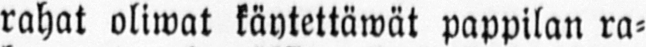rahat oliwat käytettäwät pappilan ra-
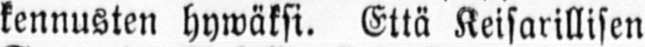kennusten hywäksi. Että Keisarillisen
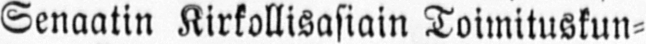Senaatin Kirkollisasiain Toimituskun-
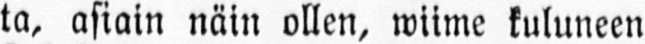ta, asiain näin ollen, wiime kuluneen
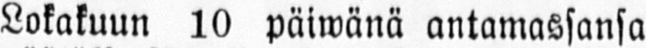Lokakuun 10 päiwänä antamassansa
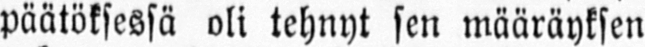päätöksessä oli tehnyt sen määräyksen
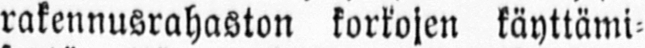rakennusrahaston korkojen käyttämi-
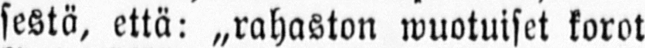sestä, että: „rahaston wuotuiset korot
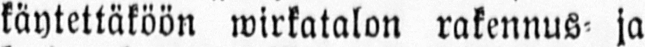käytettäköön wirkatalon rakennus- ja
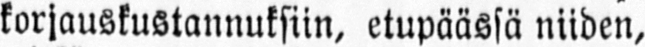korjauskustannuksiin, etupäässä niiden,
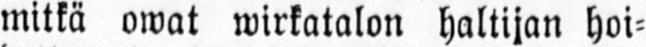mitkä owat wirkatalon haltijan hoi-
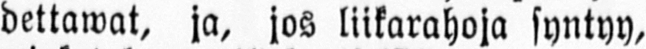dettawat, ja, jos liikarahoja syntyy,
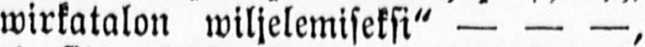wirkatalon wiljelemiseksi" — — —,
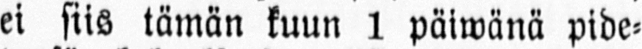ei siis tämän kuun 1 päiwänä pide-
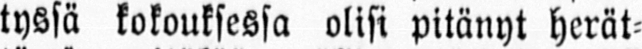tyssä kokouksessa olisi pitänyt herät-
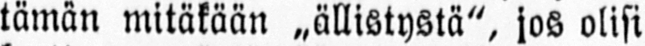tämän mitäkään „ällistystä", jos olisi
